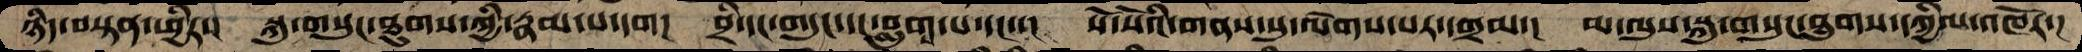ཉིད་བསྟན་ཕྱིར་།  སྐུ་གསུངཐུགས་ཀྱི་རྣམ་པ་དག།  བྲི་དང་གདུང་དང་བླུག་པ་དང་་།  སོ་སོའི་གནས་སུ་ལོགས་པར་དགྲམ་།  མ་ལུས་སྐུ་གསུང་ཐུགས་དཀྱིལ་འཁོར་།
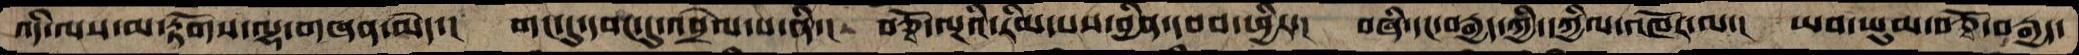འདི་ལས་མ་རྟོགས་ལྷ་གཞན་མེད་།  གང་དུ་དབང་དུ་འབྲེལ་པ་ནི་།  བཅྭོ་ལྔའི་རིམ་པས་བྱིན་དབབ་ཕྱིར་།  བཞི་དང་བརྒྱད་ཀྱི་དཀྱིལ་འཁོར་ལ་།  ཡབ་ཡུམ་བཅྭོ་བརྒྱད་
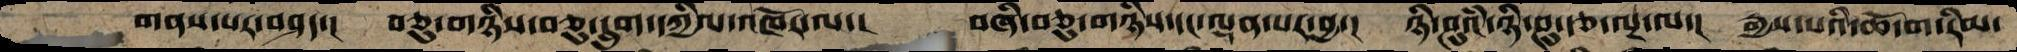གནས་པར་བཤད་།  བཅུ་གཉིས་བཅུ་དྲུག་དཀྱིལ་འཁོར་ལ་།  བཞི་བཅུ་གཉིས་དང་ལྡན་པར་་བྱ་།  ཉི་ཤུའི་ཉི་ཤུ་རྩ་ལྔ་ལ་།  རྒྱས་པའི་ཆོ་ག་རིམ་
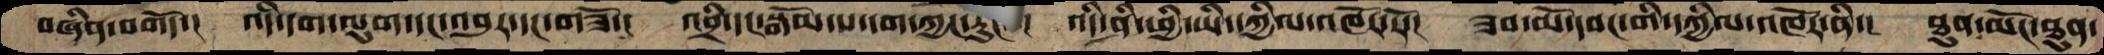བཞིན་བགོད་།  འདི་དག་ལུག་དང་འབུར་དང་གཟོ་།  འབྲི་དང་སྒོམ་པ་དག་ཀྱང་རུང་་།  འདི་ནི་ཕྱི་ཡི་དཀྱིལ་འཁོར་རོ་།  ཟབ་མོ་དབང་གི་དཀྱིལ་འཁོར་ནི་།  ཐུན་མོང་ཐུན་
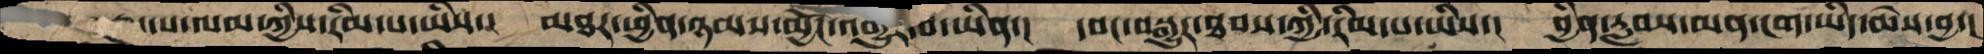་པ་ལམ་ཀྱིས་རིམ་པ་ཡིས་།  མཐར་ཕྱིན་ཉམས་མྱོང་འགྱུར་བ་ཡིན་།  དབང་བསྒྱུར་ཐབས་ཀྱི་རིམ་པ་ཡིས་།  བྱིན་རླབས་མན་ངག་ཡིད་ཆེས་བྱ་།
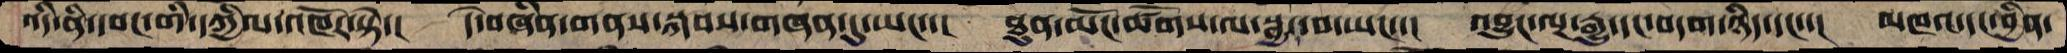འདི་ནི་དབང་གི་དཀྱིལ་འཁོར་སྟེ་།  དེ་བཞིན་གནས་སྐབས་གཞན་དུ་ཡང་་།  ཐུན་མོང་ཚོགས་ལ་སྦྱང་བ་ཡང་་།  འབྱུང་ལྔ་རྒྱུ་དང་བདག་ཉིད་དང་་།  མཁའ་དང་བྱིན་
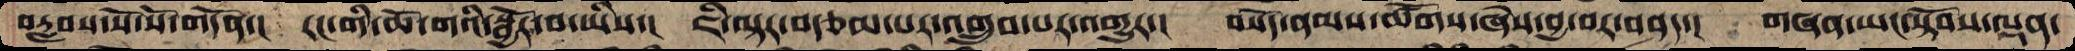བརླབས་སོ་སོ་གདོན་།  རང་གི་ཆོ་གའི་སྦྱོར་བ་ཡིས་།  ཇི་ལྟར་བརྩམ་པར་འགྲུབ་པར་འགྱུར་།  བསོད་ནམས་ཚོགས་ཞེས་བྱ་བར་བཤད་།  གཞན་ཡང་སྟོབས་ལྡན་
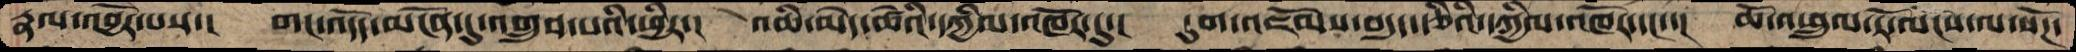རྣལ་འབྱོར་པས་།  གང་འདོད་མངོན་དུ་འགྲུབ་པའི་ཕྱིར་།  འཆི་མེད་ཚེའི་དཀྱིལ་འཁོར་དུ་།  དུག་འཇོམས་བདུད་རྩིའི་དཀྱིལ་འཁོར་དང་་།  ཆོ་འཕྲུལ་རོ་ལངས་ལ་སོཌ་
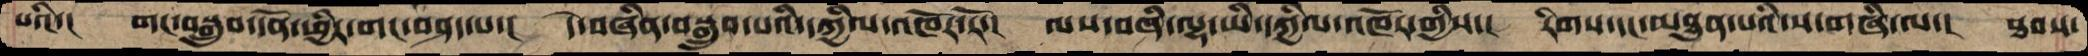པའི་།  གང་བསྒྲུབ་དོན་ཕྱིར་གང་བཤད་པ་།  དེ་བཞིན་བསྒྲུབ་པའི་དཀྱིལ་འཁོར་རོ་།  ལས་བཞི་ལྷ་ཡི་དཀྱིལ་འཁོར་གྱིས་།  རིགས་དང་མཐུན་པའི་ས་གཞི་ལ་།  ཐབས་
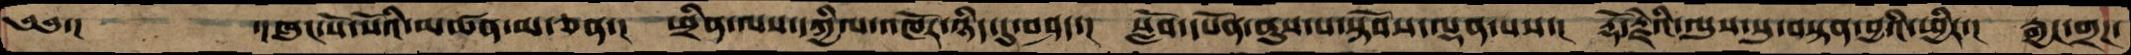༄༅་།   ་།ཁུང་སོ་སོའི་མཚན་མ་ཅན་།  ཕྲིན་ལས་དཀྱིལ་འཁོར་ཉིད་དུ་བཤད་།  སློབ་དཔོན་ནུས་པ་སྟོབས་ལྡན་པས་།  རྡོ་རྗེའི་ལུས་སུ་བསྟན་བྱའི་ཕྱིར་།  རྒྱང་གྲཌ་
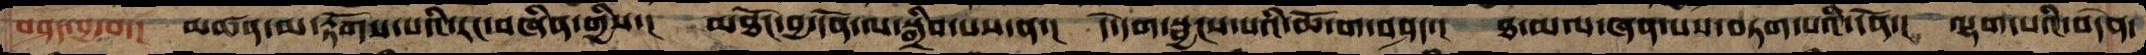བཤད་བྱ་བ་།  མཚན་མ་རྟོགས་པའི་རང་བཞིན་གྱིས་།  མཐོང་བྱ་དོན་ལ་སྒྲིབ་པས་ན་།  དེ་དག་སྦྱངས་པའི་ཆོ་ག་བཤད་།  ཐ་མལ་ཞན་པས་བཏག་པའི་དོན་།  ལྷག་པའི་བདེན་
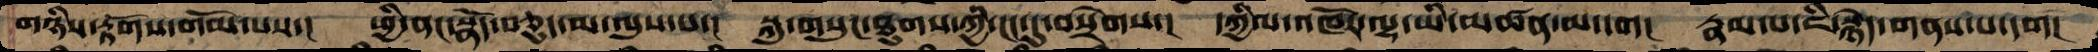གཉིས་རྟོགས་གོམ་པས་།  ཕྱི་ནང་སྣོད་བཅུད་མ་ལུས་པ་།  སྐུ་གསུང་ཐུགས་ཀྱི་ངང་དུ་བསྲེགས་།  དཀྱིལ་འཁོར་ལྷ་ཡི་མཚན་མ་དག།  རྣམ་པ་ཇི་སྙེད་གནས་པ་དག།
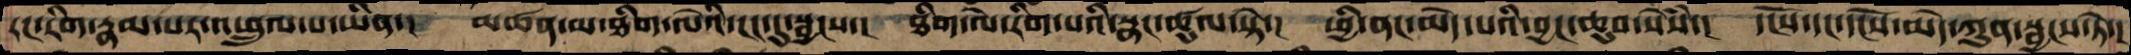རང་རིག་རྣམ་པར་འཕྲུལ་པ་ཡིན་།  མཚན་མ་ཐིག་ལེའི་ངང་དུ་སྦྱངས་།  ཐིག་ལེ་རིག་པའི་སྣང་ཚུལ་སྟེ་།  ཕྱི་ནང་མེད་པའི་བྱང་ཆུབ་སེཾས་།  དངོས་དང་དངོས་མེད་ཀུན་སྦྱངས་ཏེ་།
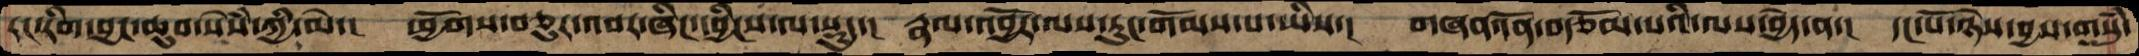རང་རིག་བྱང་ཆུབ་སེཾས་ཀྱི་མེ་།  ཕྱོགས་བཅུར་འབར་ཞིང་དབྱིངས་ལ་སྡུད་།  རྣལ་འབྱོར་ལས་རུང་གོམས་པ་ཡིས་།  གཞན་དོན་བརྩོམ་པའི་ལས་བྱེད་ན་།  དང་པོ་ཉེས་བྱས་གསུཾ་
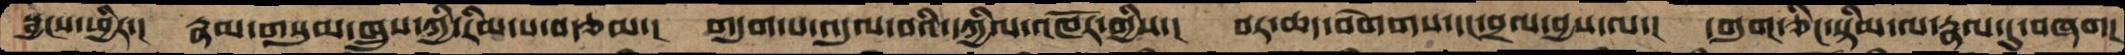སྦྱངས་ཕྱིར་།  རྣམ་གསུམ་ཁྲུས་ཀྱི་རིམ་པ་བརྩམ་།  གདུག་པ་འདུལ་བའི་དཀྱིལ་འཁོར་གྱིས་།  བར་ཆད་བགེགས་དང་བྲལ་བྱས་ལ་།  དགུག་ཅིང་སྟིམ་ལ་རྣལ་དུ་བཞག།
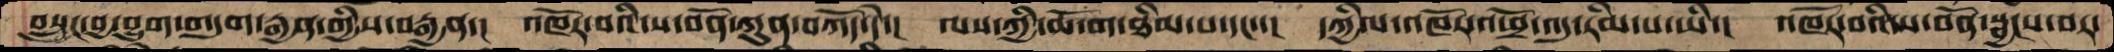བསྲུང་བྱ་བྱུག་གདུག་རྒྱན་གྱིས་བརྒྱན་།  འཁོར་བའི་ས་བོན་ཀུན་བཀོད་དེ་།  ལས་ཀྱི་ཆོ་ག་ཐིམ་པ་དང་་།  དཀྱིལ་འཁོར་འཕྲོ་འདུ་རིམ་པ་ཡི་།  འཁོར་བའི་ས་བོན་སྦྱངས་བར་
